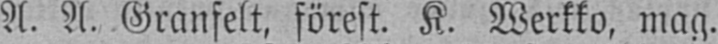A. A. Granfelt, förest. K. Werkko, mag.
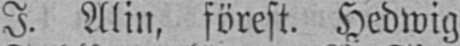I. Alin, förest. Hedwig
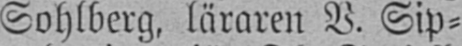Sohlberg, läraren V. Sip-
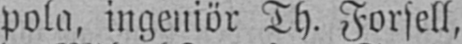pola, ingeniör Th. Forsell,
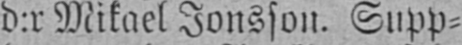d:r Mikael Jonsson. Supp-
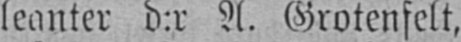leanter d:r A. Grotenfelt,
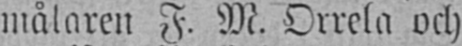målaren F. M. Orrela och
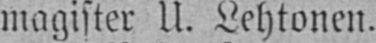magister U. Lehtonen.
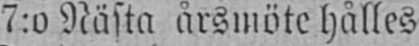7:o Nästa årsmöte hålles
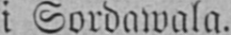i Sordawala.
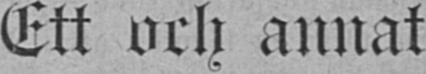Ett och annat
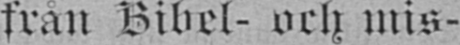från Bibel- och mis-
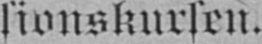sionskursen.
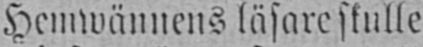Hemwännens läsare skulle
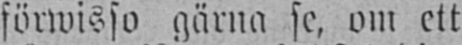förwisso gärna se, om ett
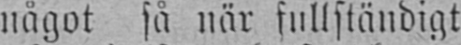något så när fullständigt
